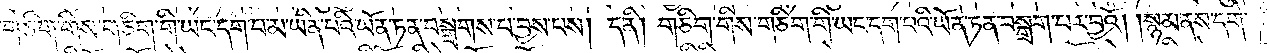སྟེ་ཉེ་དུ་རྣམས་ལ་གཅིག་གིས་གཅིག་གི་ཡང་དག་པ་མ་ཡིན་པའི་ཡོན་ཏན་བསྒྲགས་པ་བྱས་པས། ད་ནི། གཅིག་གིས་གཅིག་གི་ཡང་དག་པའི་ཡོན་ཏན་བསྒྲག་པར་བྱའོ། །སྙམ་ནས་དགེ་
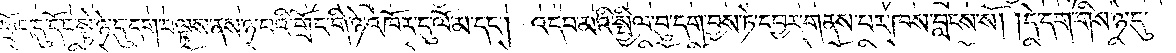སློང་ལྔ་བརྒྱ་པོ་དེ་དག་ཉ་པའི་གྲོང་དུ་དོང་སྟེ་ཉེ་དུ་དག་བལྟས་ནས་ཉ་བའི་གྲོང་གི་ཉེ་འཁོར་དུ་ལོ་མ་དང༌། འདབ་མའི་སྤྱིལ་བུ་དག་བྱས་ཏེ་དབྱར་གནས་པར་ཁས་བླངས་སོ། །དེ་དག་གིས་ཉེ་དུ་
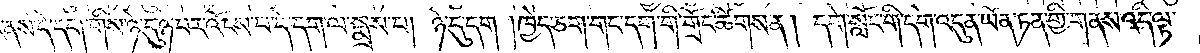ནས་དེ་དག་གིས་ཉེ་དུ་ཉེ་བར་འོངས་པ་དེ་དག་ལ་སྨྲས་པ། ཉེ་དུ་དག །ཁྱེད་ཅག་གང་དག་གི་གྲོང་ཚིགས་ན། དགེ་སློང་གི་དགེ་འདུན་ཡོན་ཏན་གྱི་གནས་འདི་ལྟ་
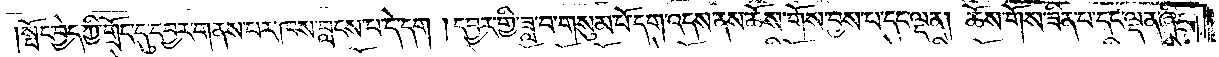སྤོང་བྱེད་ཀྱི་གྲོང་དུ་དབྱར་གནས་པར་ཁས་བླངས་པ་དེ་དག །དབྱར་གྱི་ཟླ་བ་གསུམ་པོ་དག་འདས་ནས་ཆོས་གོས་བྱས་པ་དང་ལྡན། ཆོས་གོས་ཟིན་པ་དང་ལྡན་ཞིང༌།
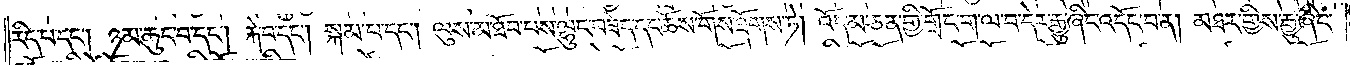རིད་པ་དང༌། ཉམ་ཆུང་བ་དང༌། རྐེ་བ་དང༌། སྐམ་པ་དང༌། ལུས་མ་ཐོབ་པས་ལྷུང་བཟེད་དང་ཆོས་གོས་ཐོགས་ཏེ། འོད་མ་ཅན་གྱི་གྲོང་ག་ལ་བ་དེར་རྒྱུ་ཞིང་འདོང་བ་ན། མཐར་གྱིས་རྒྱུ་ཞིང་
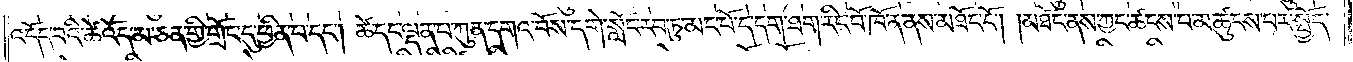འདོད་པའི་ཚེ་འོད་མ་ཅན་གྱི་གྲོང་དུ་ཕྱིན་པ་དང༌། ཚེ་དང་ལྡན་པ་ཀུན་དགའ་བོས་དགེ་སློང་རབ་ཏུ་མང་པོ་དེ་དག་ཐག་རིང་པོ་ཁོ་ན་ནས་མཐོང་ངོ༌། །མཐོང་ནས་ཀྱང་ཚངས་པ་མཚུངས་པར་སྤྱོད་
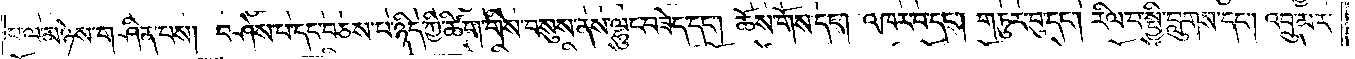པ་ལ་མཉེས་གཤིན་པས། བཤེས་པ་དང་བཅས་པ་ཉིད་ཀྱི་ཚིག་གིས་བསུས་ནས་ལྷུང་བཟེད་དང༌། ཆོས་གོས་དང༌། འཁར་བ་དང༌། གཏུར་བུ་དང༌། རིལ་བ་སྤྱི་བླུགས་དང༌། འབྲུ་མར་
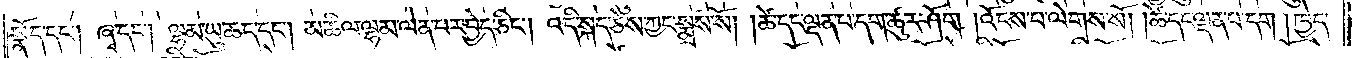སྣོད་དང༌། ཞྭ་དང༌། ལྷམ་ཡུ་ཆད་དང༌། མཆིལ་ལྷམ་ལེན་པར་བྱེད་ཅིང༌། འདི་སྐད་ཅེས་ཀྱང་སྨྲས་སོ། །ཚེ་དང་ལྡན་པ་དག་ཚུར་ཤོག །འོངས་པ་ལེགས་སོ། །ཚེ་དང་ལྡན་པ་དག །ཁྱེད་
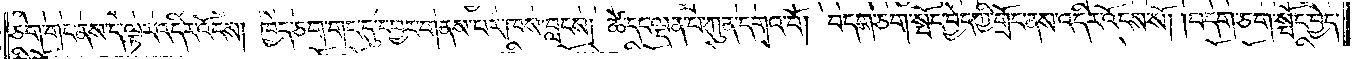ཅག་གང་ནས་ད་ལྟར་འདིར་འོངས། ཁྱེད་ཅག་གང་དུ་དབྱར་གནས་པར་ཁས་བླངས། ཚེ་དང་ལྡན་པ་ཀུན་དགའ་བོ། བདག་ཅག་སྤོང་བྱེད་ཀྱི་གྲོང་ནས་འདིར་འོངས་སོ། །བདག་ཅག་སྤོང་བྱེད་
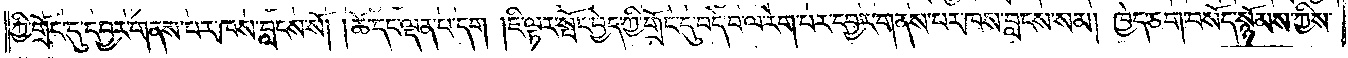ཀྱི་གྲོང་དུ་དབྱར་གནས་པར་ཁས་བླངས་སོ། །ཚེ་དང་ལྡན་པ་དག །ཇི་ལྟར་སྤོང་བྱེད་ཀྱི་གྲོང་དུ་བདེ་བ་ལ་རེག་པར་དབྱར་གནས་པར་ཁས་བླངས་སམ། ཁྱེད་ཅག་བསོད་སྙོམས་ཀྱིས་
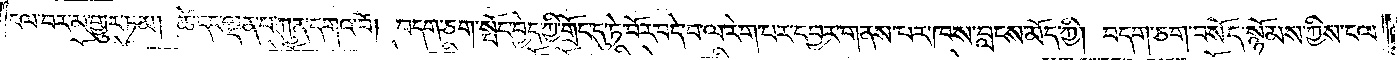ངལ་བར་མ་གྱུར་ཏམ། ཚེ་དང་ལྡན་པ་ཀུན་དགའ་བོ། བདག་ཅག་སྤོང་བྱེད་ཀྱི་གྲོང་དུ་ཏེ་བོར་བདེ་བ་ལ་རེག་པར་དབྱར་གནས་པར་ཁས་བླངས་མོད་ཀྱི། བདག་ཅག་བསོད་སྙོམས་ཀྱིས་ངལ་
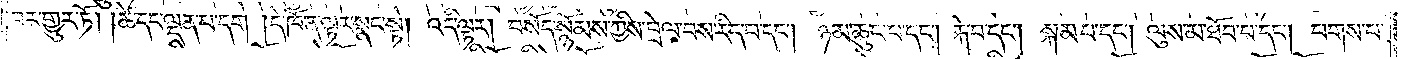བར་གྱུར་ཏོ། །ཚེ་དང་ལྡན་པ་དག །དེ་ཁོ་ན་ལྟར་སྣང་སྟེ། འདི་ལྟར། བསོད་སྙོམས་ཀྱིས་བྲེལ་བས་རིད་པ་དང༌། ཉམ་ཆུང་བ་དང༌། རྐེ་བ་དང༌། སྐམ་པ་དང༌། ལུས་མ་ཐོབ་པ་དང༌། པགས་པ་
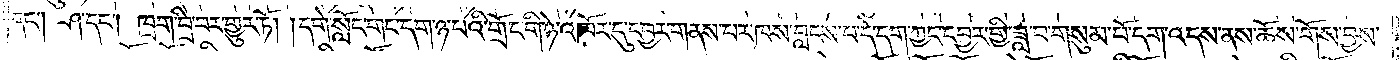དང༌། ཤ་དང༌། ཁྲག་བྲི་བར་གྱུར་ཏོ། །དགེ་སློང་གང་དག་ཉ་པའི་གྲོང་གི་ཉེ་འཁོར་དུ་དབྱར་གནས་པར་ཁས་བླངས་པ་དེ་དག་ཀྱང་དབྱར་གྱི་ཟླ་བ་གསུམ་པོ་དག་འདས་ནས་ཆོས་གོས་བྱས་
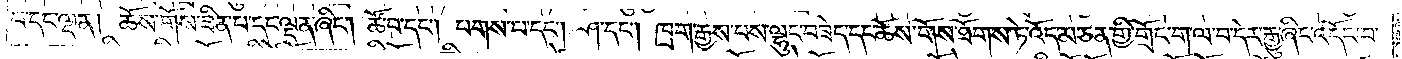པ་དང་ལྡན། ཆོས་གོས་ཟིན་པ་དང་ལྡན་ཞིང༌། ཚོ་བ་དང༌། པགས་པ་དང༌། ཤ་དང༌། ཁྲག་རྒྱས་པས་ལྷུང་བཟེད་དང་ཆོས་གོས་ཐོགས་ཏེ་འོད་མ་ཅན་གྱི་གྲོང་ག་ལ་བ་དེར་རྒྱུ་ཞིང་འདོང་བ་
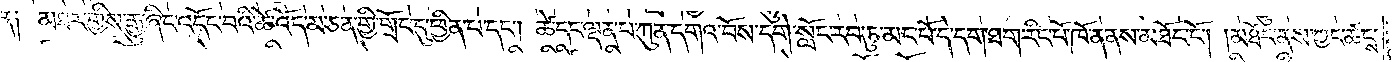ན༑ མཐར་གྱིས་རྒྱུ་ཞིང་འདོང་བའི་ཚེ་འོད་མ་ཅན་གྱི་གྲོང་དུ་ཕྱིན་པ་དང༌། ཚེ་དང་ལྡན་པ་ཀུན་དགའ་བོས་དགེ་སློང་རབ་ཏུ་མང་པོ་དེ་དག་ཐག་རིང་པོ་ཁོ་ན་ནས་མཐོང་ངོ༌། །མཐོང་ནས་ཀྱང་ཚངས་
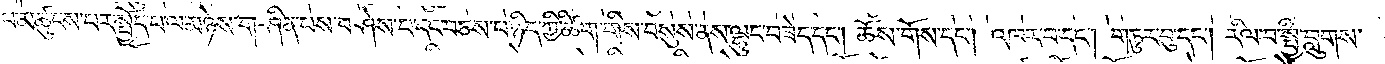པ་མཚུངས་པར་སྤྱོད་པ་ལ་མཉེས་གཤིན་པས་བཤེས་པ་དང་བཅས་པ་ཉིད་ཀྱི་ཚིག་གིས་བསུས་ནས་ལྷུང་བཟེད་དང༌། ཆོས་གོས་དང༌། འཁར་བ་དང༌། གཏུར་བུ་དང༌། རིལ་བ་སྤྱི་བླུགས་
